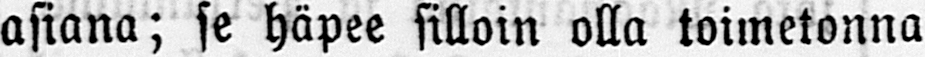asiana; se häpee silloin olla toimetonna
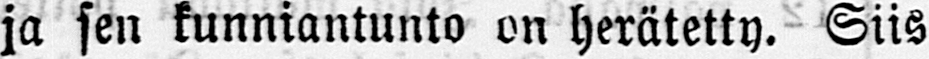ja sen kunniantunto on herätetty. Siis
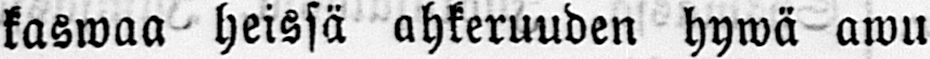kaswaa heissä ahkeruuden hywä awu
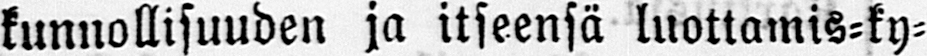kunnollisuuden ja itseensä luottamis-ky-
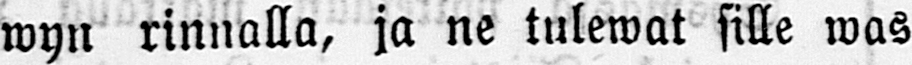wyn rinnalla, ja ne tulewat sille was-
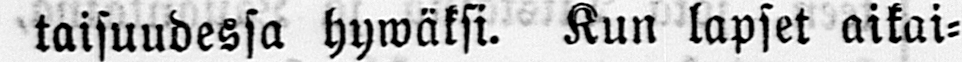taisuudessa hywäksi. Kun lapset aikai-
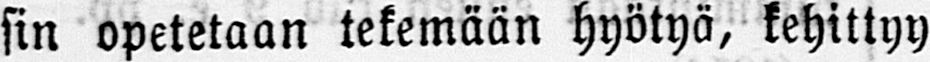sin opetetaan tekemään hyötyä, kehittyy
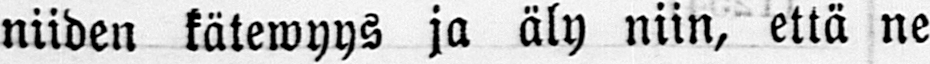niiden kätewyys ja äly niin, että ne
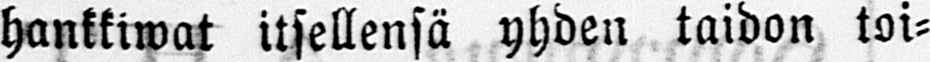hankkiwat itsellensä yhden taidon toi-
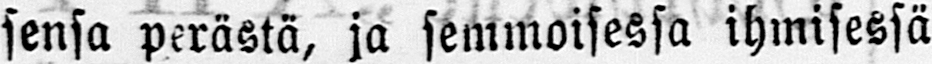sensa perästä, ja semmoisessa ihmisessä
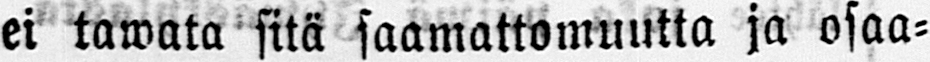ei tawata sitä saamattomuutta ja osaa-
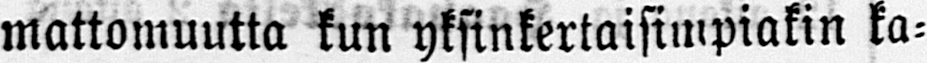mattomuutta kun yksinkertaisimpiakin ka-
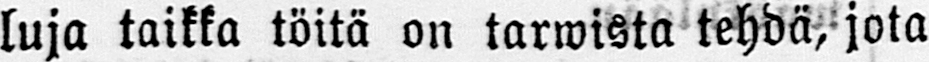luja taikka töitä on tarwista tehdä, jota
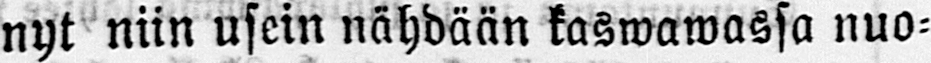nyt niin usein nähdään kaswawassa nuo-
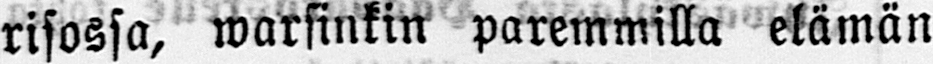risossa, warsinkin paremmilla elämän
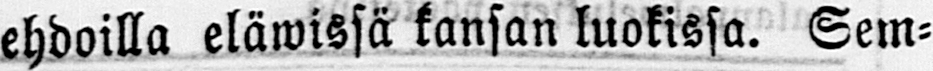ehdoilla eläwissä kansan luokissa. Sem-
